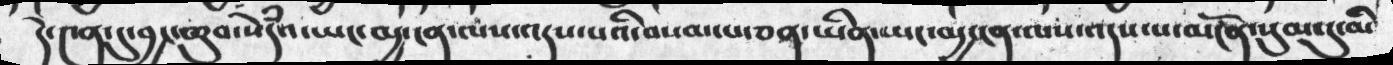དེ་༤ན་དུ་བྱང་ཆུབ་སེཾདའ་ཡང་མྱ་ངན་ལས་འདས་པའི་བསམ་པ་ཅན་ཡིན་ཡང་མྱ་ངན་ལས་འདས་པ་མངོན་སུམ་དུ་མི
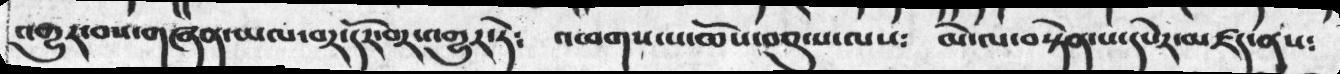འགྱུར་བས་གཞན་ཡལ་བར་དོར་བར་འགྱུར་ཏེ༴   འཕགས་པ་ཆོས་བཅུ་པ་ལས༴    མེ་ལ་བསྟེན་པ་དཔེར་མཛད་ནས༴
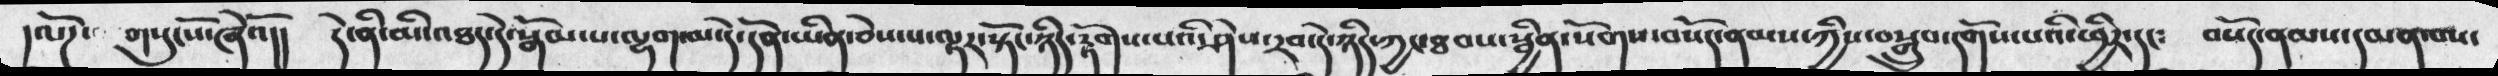།ལོཌ་   གསུངསོ་ཞེའོ།།  དེ་ནི་མི་འཐད་དེ་སྒོམ་པ་ལྷག་མ་དེ་དོན་ཡིན་ཅེས་པ་ལྟར་སྟོང་ཉིད་རྟོགས་པའི་ཤེས་རབ་དེ་ཉིད་ཀྱང་ཐབས་སྦྱིན་སོགས་བསོད་ནམས་ཀྱིས་བསྒྲུབ་དགོས་པའི་ཕྱིར་དང༴   བསོད་ནམས་དམན་པས་
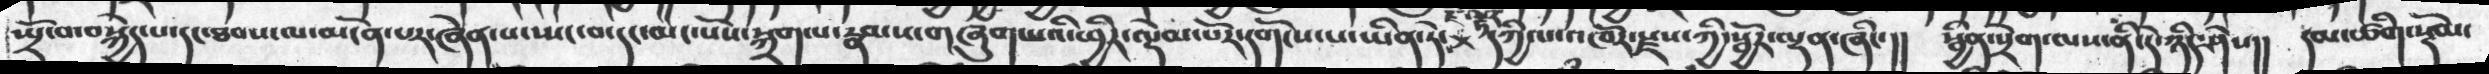སྤྲོ་བ་བསྐྱེད་པ་དང་ཐབས་ལ་མངོན་པར་ཞེན་པ་སྤང་བ་དང་མང་པོས་སྐྲག་པ་རྣམས་གཞུག་པའི་ཕྱིར་ལྡེམ་པོར་དགོངས་པ་ཡིན་ཏེ་+ཇི་ལྟར་དཀྱིལ་འཁོར་རྫས་ཀྱི་སྦྱོར་ལྡན་ཞིང་།།  སྦྱིན་སྲེག་ལས་ནི་དེ་ཉིད་ཤེས།།  དམ་ཚིག་སྡོམ་
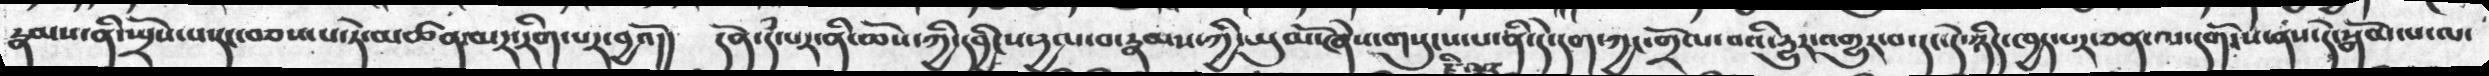རྣམས་ནིསྤྲོས་པ་དང་བཅས་པ་ཏེ་མཚན་མར་རིག་པར་བྱའོ།།   དོན་དཾ་པར་ནི་ཆོས་ཀྱི་དབྱིངས་དྱལ་བ་རྣམས་ཀྱི་ཡུཾ་མོ་ཞེས་གསུངས་པ་ནི་དེ་དག་ཀྱང་གྲོལ་བའི་དྱུར་འགྱུར་བ་དང་དེ་ཉིད་ཁྱད་པར་ཅན་ལ་དགོངས་ནས་དེ་སྒོམ་པ་ལ་
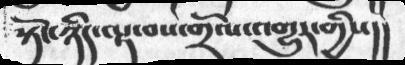སྟོང་ཉིད་ལྟ་བས་གྲོལ་འགྱུར་གྱིས།།
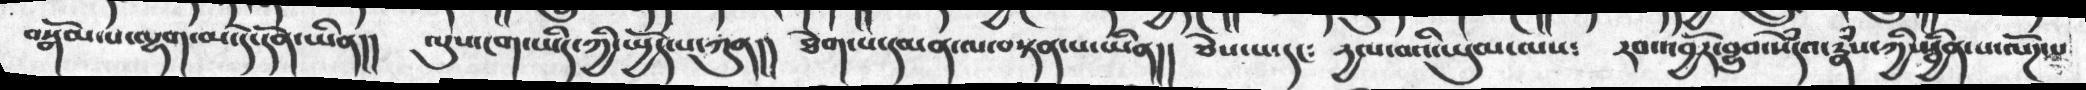བསྒོམ་པ་ལྷག་མ་དེ་དོན་ཡིན།།  ལུས་ངག་ཡིད་ཀྱི་ཡྱོད་པ་ཀུན།།    ཐེག་པ་དམན་ལ་བསྟན་པ་ཡིན།།  ཅེས་པ་དང༴  དྱལ་བའི་ཡུམ་ལས་  རབ་འབྱོར་བྱུབ་སེྃདའ་རྣཾས་ཀྱི་སྦྱིན་པ་ལོཌ་པ
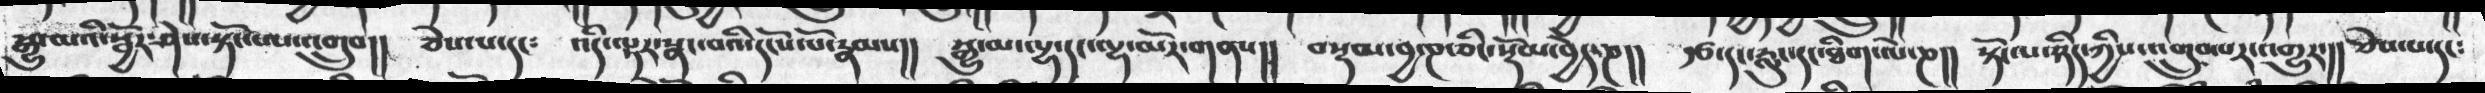སྒྱུ་མའི་སྦྱོར་ཤེས་སྟོང་པས་འགྲུབ།།  ཅེས་པ་དང༴   འདི་ལྟར་སྣང་བའི་དངོས་པོ་རྣམས།།  སྒྱུ་མ་ལྷ་དང་ལྷ་མོར་གནས།།  བསྡམ་བྱ་ཎ་ཅིང་སྡོམ་བྱེད་ཎ།།  རྩ་དང་རླུང་དང་ཐིག་ལེ་ཎ།།   སྟོང་པ་ཉིད་ཀྱིས་འགྲུབ་པར་འགྱུར་།།  ཅེསཔ་དང༴
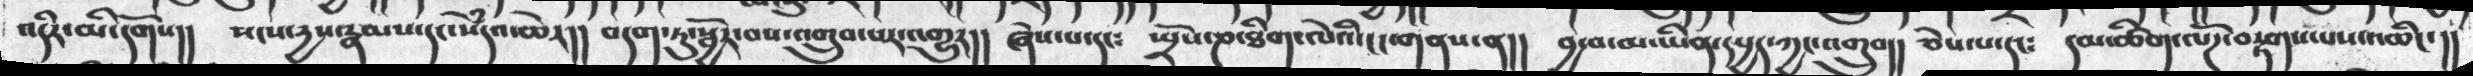འདིིར་མི་དགོས།།   སངས་དྱས་རྣམས་དང་སེཾདའ་ཆེར།།   བདག་ཏུ་སྦྱོར་བས་འགྲུབ་པར་འགྱུར།།  ཡྲོས་ཎ་ཐིག་ལེའི་ངང་གནས་ན།།   བྱ་བ་མ་ཡིན་དཔྱད་ཀྱང་འགྲུབ།།   ཅེས་པ་དང༴  དམ་ཚིག་ལོཌ་བརྟགས་པས་འཆིང་།།
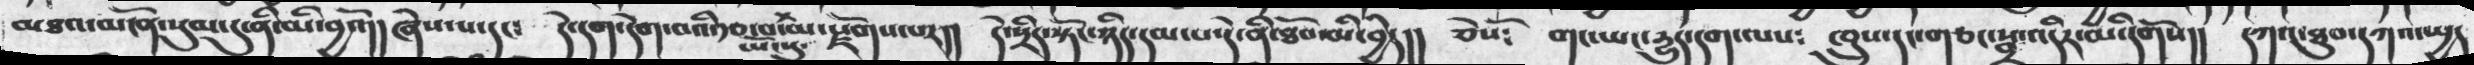མཐའ་མངོན་སུམ་དུ་ནི་མི་བྱའོ།། ཞེས་པ་དང༴  དེ་དག་དེག་བའི་རྩ་བ་ཡོངས་སུ་རྫོགས་པར།། དེ་སྲིད་སྟོང་ཉིད་དམ་པ་དེ་ནི་ཐོབ་མི་བྱེད།།  ཅེསོ༴  གང་ཡང་དྱུད་དག་ལས༴  ཁྲུས་དང་གཙང་སྦྲ་འདིར་མི་དགོས།།  དཀའ་ཐུབ་དཀའ་སྤྱད
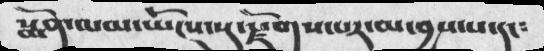སྨོན་མལ་ཡོངས་སུ་སྫོགས་པར་མ་བྱས་པ་དང༴
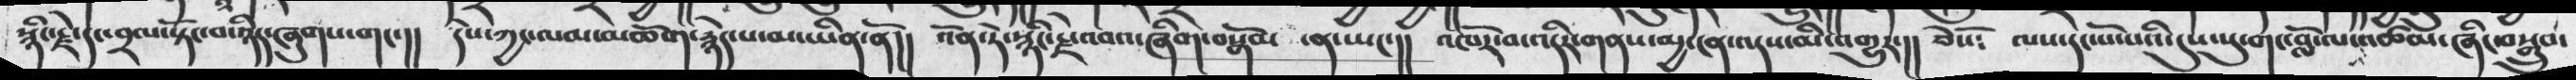སྙིང་རྗེ་དང་འབྲལ་སྟོང་བ་ཉིད་ཞུགས་གང་།།   དེས་ཀྱང་ལམ་མཆོག་རྙེད་པ་མ་ཡིན་ནོ།།   འོན་ཏེ་སྙིང་རྗེ་འབའ་ཞིག་བསྒོམ་ན་ཡང་།།  འཁོར་བ་འདིར་གནས་མྱ་ངན་འདས་མི་འགྱུར་།།   ཅེསོ༴    ལས་དང་པོ་པའི་དུས་སུ་གང་བློ་ལ་འཚམ་ཞིང་བསྒྲུབ་
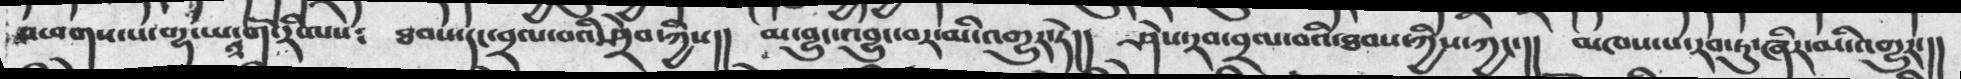འཕགས་པ་གྷ་ཡ་གོ་རི་ལས༴   ཐབས་དང་བྲལ་བའི་ཤྲེབ་ཀྱིས།།  མ་བྱུང་འབྱུང་བར་མི་འགྱུར་ཏེ།།  ཤེས་རབ་བྲལ་བའི་ཐབས་ཀྱིས་ཀྱང་།།  མཁས་པ་རབ་ཏུ་ཞིར་མི་འགྱུར་།།
